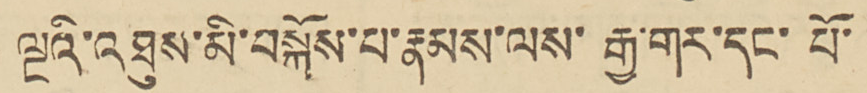ལྔའི་འཐུས་མི་བསྐོས་པ་རྣམས་ལས་རྒྱ་གར་དང་པོ་
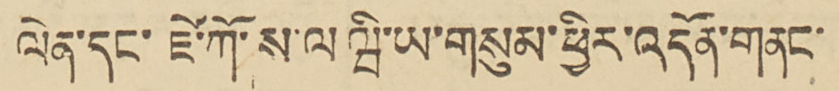ལེན་དང་ཛེ་ཀོ་ས་ལ ཝི་ཡ་གསུམ་ཕྱིར་འདོན་གནང་
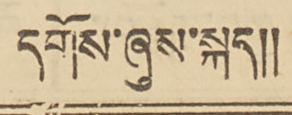དགོས་ཞུས་སྐད།།
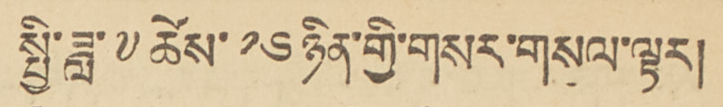སྤྱི་ཟླ་༧ ཚེས་༡༦ཉིན་གྱི་གསར་གསལ་ལྟར།
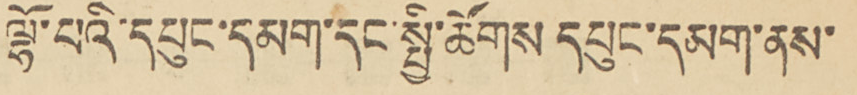ལྷོ་པའི་དཔུང་དམག་དང་སྤྱི་ཚོགས དཔུང་དམག་ནས་
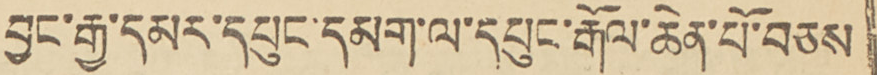བྱང་རྒྱ་དམར་དཔུང་དམག་ལ་དཔུང་རྒོལ་ཆེན་པོ་བཅས
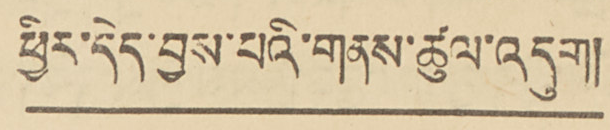ཕྱིར་དེད་བྱས་པའི་གནས་ཚུལ་འདུག།།
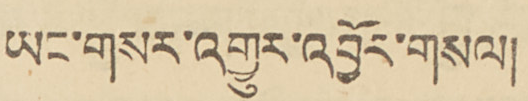ཡང་གསར་འགྱུར་འབྱོར་གསལ།
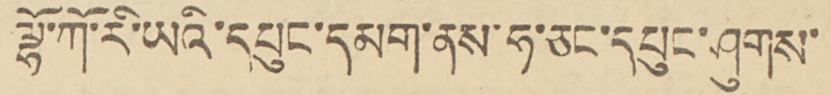ལྷོ་ཀོ་རི་ཡའི་དཔུང་དམག་ནས་ཧ་ཅང་དཔུང་ཤུགས་
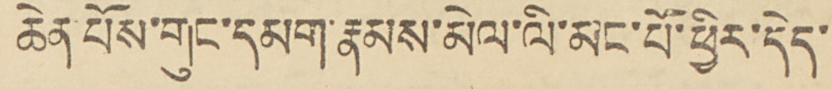ཆེན་པོས་གུང་དམག་རྣམས་མེལ་ལི་མང་པོ་ཕྱིར་དེད་
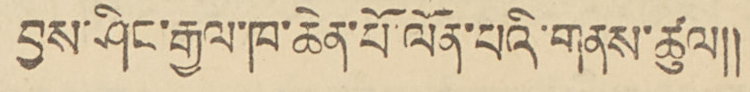བྱས་ཤིང་རྒྱལ་ཁ་ཆེན་པོ་ལོན་པའི་གནས་ཚུལ།།
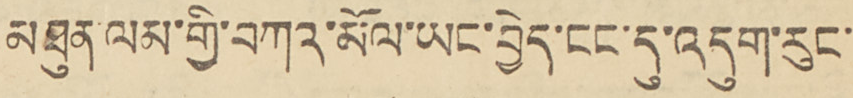མཐུན་ལམ་གྱི་བཀའ་མོལ་ཡང་བྱེད་ངང་དུ་འདུག་རུང་
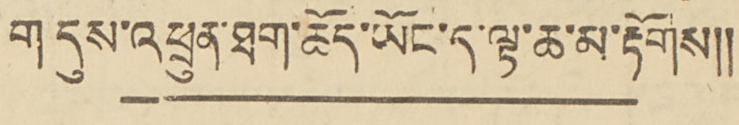ག་དུས་འཕྲུན་ཐག་ཆོད་ཡོང་ད་ལྟ་ཆ་མ་རྟོགས།།
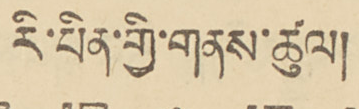རི་པིན་གྱི་གནས་ཚུལ།
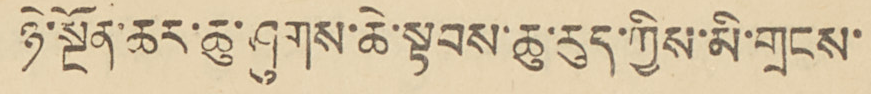ཉེ་སྔོན་ཆར་ཆུ་ཤུགས་ཆེ་སྟབས་ཆུ་རུད་ཀྱིས་མི་གྲངས་
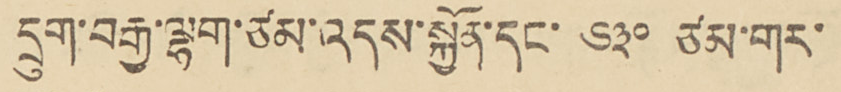དྲུག་བརྒྱ་ལྷག་ཙམ་འདས་སྐྱོན་དང་ ༦༣༠ ཙམ་གར་
